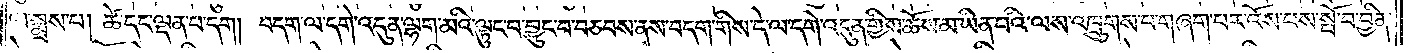ལ་སྨྲས་པ། ཚེ་དང་ལྡན་པ་དག །བདག་ལ་དགེ་འདུན་ལྷག་མའི་ལྟུང་བ་བྱུང་བ་བཅབས་ནས་བདག་གིས་དེ་ལ་དགེ་འདུན་གྱིས་ཆོས་མ་ཡིན་པའི་ལས་འཁྲུགས་པ་གཞག་པར་འོས་པས་སྤོ་བ་བྱིན་
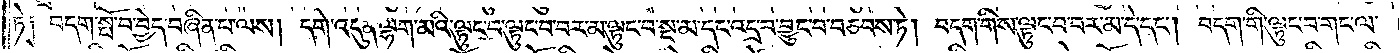ཏེ༑ བདག་སྤོ་བ་བྱེད་བཞིན་པ་ལས། དགེ་འདུན་ལྷག་མའི་ལྟུང་བ་ལྟུང་བ་བར་མ་ལྟུང་བ་སྔ་མ་དང་འདྲ་བ་བྱུང་བ་བཅབས་ཏེ། བདག་གིས་ལྟུང་བ་བར་མ་དེ་དང༌། བདག་གི་ལྟུང་བ་གང་ལ་
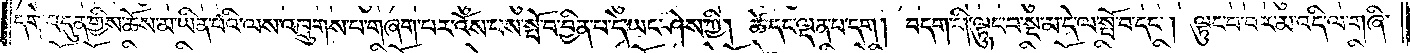དགེ་འདུན་གྱིས་ཆོས་མ་ཡིན་པའི་ལས་འཁྲུགས་པ་གཞག་པར་འོས་པས་སྤོ་བ་བྱིན་པ་དེ་ཡང་ཤེས་ཀྱི། ཚེ་དང་ལྡན་པ་དག །བདག་གི་ལྟུང་བ་སྔ་མ་དེ་ལ་སྤོ་བ་དང༌། ལྟུང་བ་བར་མ་འདི་ལ་གཞི་
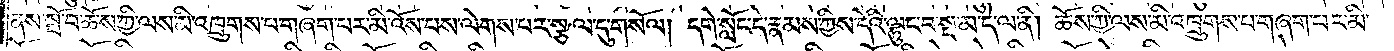ནས་སྤོ་བ་ཆོས་ཀྱི་ལས་མི་འཁྲུགས་པ་གཞག་པར་མི་འོས་པས་ལེགས་པར་སྩལ་དུ་གསོལ། དགེ་སློང་དེ་རྣམས་ཀྱིས་དེའི་ལྟུང་བ་སྔ་མ་དེ་ལ་ནི། ཆོས་ཀྱི་ལས་མི་འཁྲུགས་པ་གཞག་པར་མི་
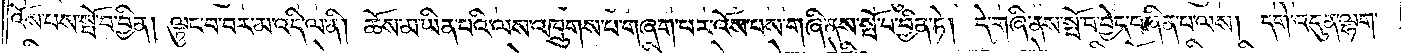འོས་པས་སྤོ་བ་བྱིན། ལྟུང་བ་བར་མ་འདི་ལ་ནི། ཆོས་མ་ཡིན་པའི་ལས་འཁྲུགས་པ་གཞག་པར་འོས་པས་གཞི་ནས་སྤོ་བ་བྱིན་ཏེ། དེ་གཞི་ནས་སྤོ་བ་བྱེད་བཞིན་པ་ལས། དགེ་འདུན་ལྷག་
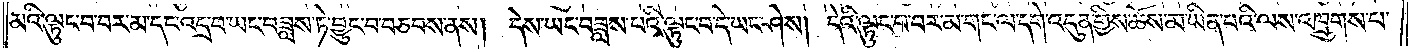མའི་ལྟུང་བ་བར་མ་དང་འདྲ་བ་ཡང་བཟླས་ཏེ་བྱུང་བ་བཅབས་ནས། དེས་ཡང་བཟླས་པའི་ལྟུང་བ་དེ་ཡང་ཤེས། དེའི་ལྟུང་བ་བར་མ་གང་ལ་དགེ་འདུན་གྱིས་ཆོས་མ་ཡིན་པའི་ལས་འཁྲུགས་པ་
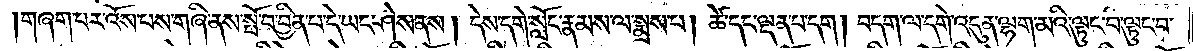།གཞག་པར་འོས་པས་གཞི་ནས་སྤོ་བ་བྱིན་པ་དེ་ཡང་ཤེས་ནས། དེས་དགེ་སློང་རྣམས་ལ་སྨྲས་པ། ཚེ་དང་ལྡན་པ་དག །བདག་ལ་དགེ་འདུན་ལྷག་མའི་ལྟུང་བ་ལྟུང་བ་
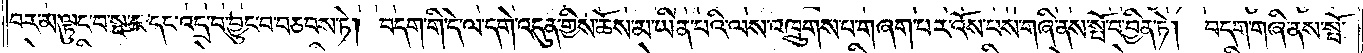བར་མ་ལྟུང་བ་སྔ་མ་དང་འདྲ་བ་བྱུང་བ་བཅབས་ཏེ། བདག་གི་དེ་ལ་དགེ་འདུན་གྱིས་ཆོས་མ་ཡིན་པའི་ལས་འཁྲུགས་པ་གཞག་པར་འོས་པས་གཞི་ནས་སྤོ་བ་བྱིན་ཏེ། བདག་གཞི་ནས་སྤོ་
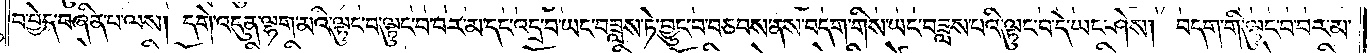བ་བྱེད་བཞིན་པ་ལས། དགེ་འདུན་ལྷག་མའི་ལྟུང་བ་ལྟུང་བ་བར་མ་དང་འདྲ་བ་ཡང་བཟླས་ཏེ་བྱུང་བ་བཅབས་ནས་བདག་གིས་ཡང་བཟླས་པའི་ལྟུང་བ་དེ་ཡང་ཤེས། བདག་གི་ལྟུང་བ་བར་མ་
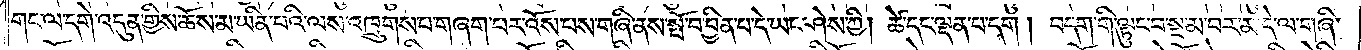གང་ལ་དགེ་འདུན་གྱིས་ཆོས་མ་ཡིན་པའི་ལས་འཁྲུགས་པ་གཞག་པར་འོས་པས་གཞི་ནས་སྤོ་བ་བྱིན་པ་དེ་ཡང་ཤེས་ཀྱི། ཚེ་དང་ལྡན་པ་དག །བདག་གི་ལྟུང་བ་སྔ་མ་བར་མ་དེ་ལ་གཞི་
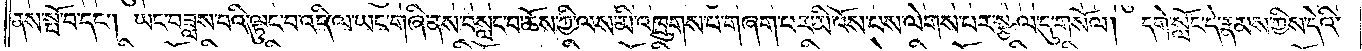ནས་སྤོ་བ་དང༌། ཡང་བཟླས་པའི་ལྟུང་བ་འདི་ལ་ཡང་གཞི་ནས་བསླང་བ་ཆོས་ཀྱི་ལས་མི་འཁྲུགས་པ་གཞག་པར་མི་འོས་པས་ལེགས་པར་སྩལ་དུ་གསོལ། དགེ་སློང་དེ་རྣམས་ཀྱིས་དེའི་
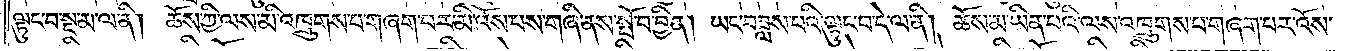ལྟུང་བ་སྔ་མ་ལ་ནི། ཆོས་ཀྱི་ལས་མི་འཁྲུགས་པ་གཞག་པར་མི་འོས་པས་གཞི་ནས་སྤོ་བ་བྱིན། ཡང་བཟླས་པའི་ལྟུང་བ་དེ་ལ་ནི། ཆོས་མ་ཡིན་པའི་ལས་འཁྲུགས་པ་གཞག་པར་འོས་
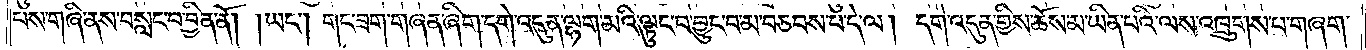པས་གཞི་ནས་བསླང་བ་བྱིན་ནོ། །ཡང༌། གང་ཟག་གཞན་ཞིག་དགེ་འདུན་ལྷག་མའི་ལྟུང་བ་བྱུང་བ་མ་བཅབས་པ་དེ་ལ། དགེ་འདུན་གྱིས་ཆོས་མ་ཡིན་པའི་ལས་འཁྲུགས་པ་གཞག་
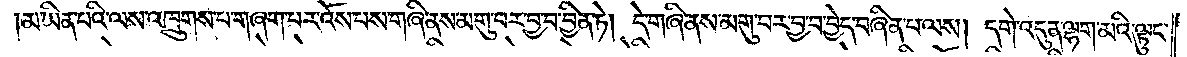མ་ཡིན་པའི་ལས་འཁྲུགས་པ་གཞག་པར་འོས་པས་གཞི་ནས་མགུ་བར་བྱ་བ་བྱིན་ཏེ། དེ་གཞི་ནས་མགུ་བར་བྱ་བ་བྱེད་བཞིན་པ་ལས། དགེ་འདུན་ལྷག་མའི་ལྟུང་
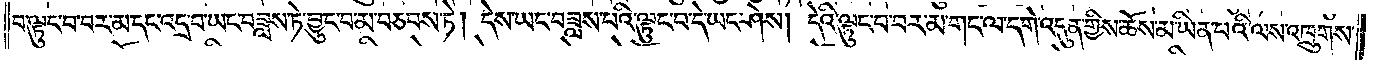བ་ལྟུང་བ་བར་མ་དང་འདྲ་བ་ཡང་བཟླས་ཏེ་བྱུང་བ་མ་བཅབས་ཏེ། དེས་ཡང་བཟླས་པའི་ལྟུང་བ་དེ་ཡང་ཤེས། དེའི་ལྟུང་བ་བར་མ་གང་ལ་དགེ་འདུན་གྱིས་ཆོས་མ་ཡིན་པའི་ལས་འཁྲུགས་
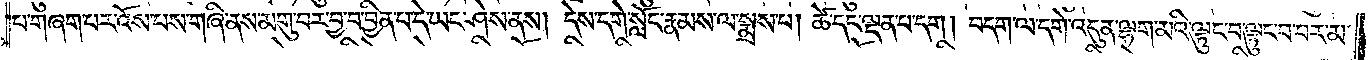པ་གཞག་པར་འོས་པས་གཞི་ནས་མགུ་བར་བྱ་བ་བྱིན་པ་དེ་ཡང་ཤེས་ནས། དེས་དགེ་སློང་རྣམས་ལ་སྨྲས་པ། ཚེ་དང་ལྡན་པ་དག །བདག་ལ་དགེ་འདུན་ལྷག་མའི་ལྟུང་བ་ལྟུང་བ་བར་མ་
